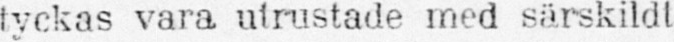tyckas vara utrustade med särskildt
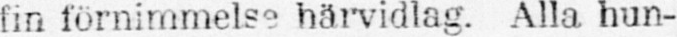fin förnimmelse härvidlag. Alla hun-
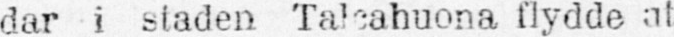dar i staden Talcahuona flydde at
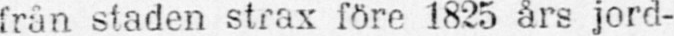från staden strax före 1825 års jord-
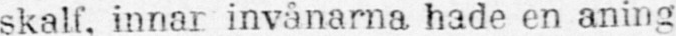skalf. innar invånarna hade en aning
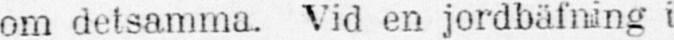om detsamma. Vid en jordbäfning i
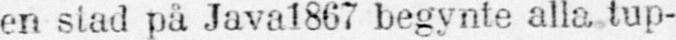en stad på Java 1867 begynte alla tup-
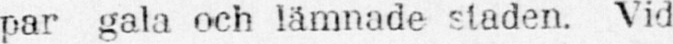par gala och lämnade staden. Vid
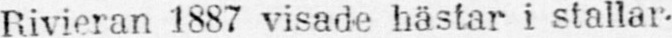Rivieran 1887 visade hästar i stallar-
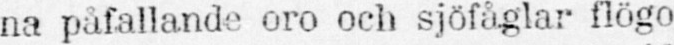na påfallande oro och sjöfåglar flögo
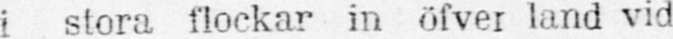i stora flockar in öfver land vid
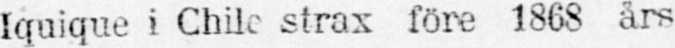Iquique i Chile strax före 1868 års
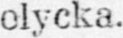olycka.
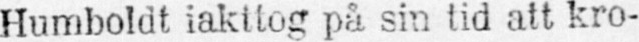Humboldt iakttog på sin tid att kro-
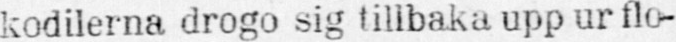kodilerna drogo sig tillbaka upp ur flo-
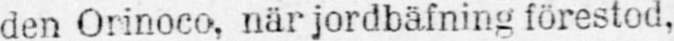den Orinoco, när jordbäfning förestod,
